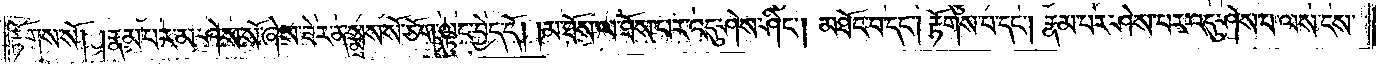རྟོགས་སོ། །རྣམ་པར་མ་ཤེས་སོ་ཞེས་ཟེར་ན་སྨྲས་སོ་ཅོག་ལྟུང་བྱེད་དོ། །མ་ཐོས་ལ་ཐོས་པར་འདུ་ཤེས་ཤིང༌། མཐོང་བ་དང༌། རྟོགས་པ་དང༌། རྣམ་པར་ཤེས་པར་འདུ་ཤེས་པ་ལས་ངས་
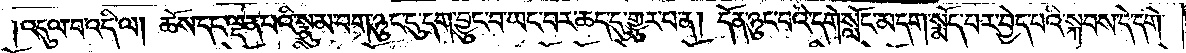འདུལ་བ་འདི་ལ། ཆོས་དང་ལྡན་པའི་སྣུམ་བག་ཉུང་དུ་དག་བྱུང་བ་ཡང་བར་ཆད་དུ་གྱུར་པ་ན། དོན་ཉུང་བའི་དགེ་སློང་མ་དག་སྨོད་པར་བྱེད་པའི་སྐབས་དེ་དགེ་
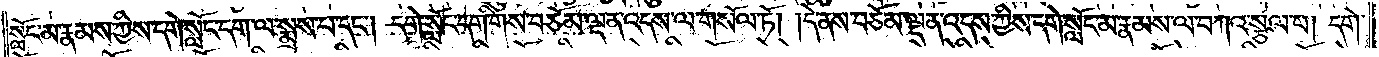སློང་མ་རྣམས་ཀྱིས་དགེ་སློང་དག་ལ་སྨྲས་པ་དང༌། དགེ་སློང་དག་གིས་བཅོམ་ལྡན་འདས་ལ་གསོལ་ཏོ། །དེ་ནས་བཅོམ་ལྡན་འདས་ཀྱིས་དགེ་སློང་མ་རྣམས་ལ་བཀའ་སྩལ་པ། དགེ་
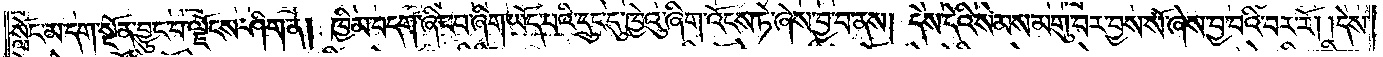སློང་མ་དག་སྔོན་བྱུང་བ་ལྗོངས་ཤིག་ན། ཁྱིམ་བདག་ཞིང་པ་ཞིག་ཡོད་པའི་དྲུང་དུ་ཁྱེའུ་ཞིག་འོངས་ཏེ་ཞེས་བྱ་བ་ནས། དེས་དེའི་སེམས་མགུ་བར་བྱས་སོ་ཞེས་བྱ་བའི་བར་རོ། །དེས་
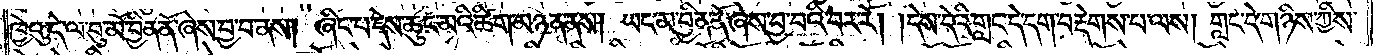ཁྱེའུ་དེ་ལ་བུ་མོ་བྱིན་ནོ་ཞེས་བྱ་བ་ནས། ཞིང་པ་དེས་ཆུང་མའི་ཚིག་མཉན་ནས། ཡང་མ་བྱིན་ནོ་ཞེས་བྱ་བའི་བར་རོ། །དེས་དེའི་གླང་དེ་དག་བརྡེགས་པ་ལས། གླང་དེ་གཉིས་ཀྱིས་
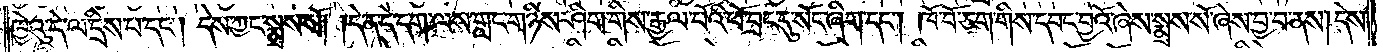ཁྱེའུ་དེ་ལ་དྲིས་པ་དང༌། དེས་ཀྱང་སྨྲས་སོ། །དེ་ན་དེ་དག་ལས་གླང་གཉིས་ཤིག་གིས་རྒྱལ་པོའི་ཕོ་བྲང་དུ་སོང་ཞིག་དང༌། ཁོ་བོ་ཅག་གིས་དབང་བྱའོ་ཞེས་སྨྲས་སོ་ཞེས་བྱ་བ་ནས། དེས་
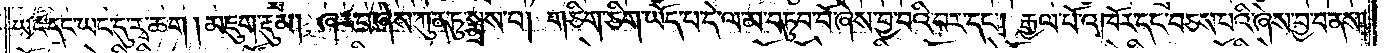ཡང་དང་ཡང་དུ་རྭ་ཆག །མཇུག་རྡུམ། ཞར་བ་ཞེས་ཀུན་ཏུ་སྨྲས་པ། གཅིག་ཅིག་ཡོད་པ་དེ་ལ་མ་བཏུབ་བོ་ཞེས་བྱ་བའི་བར་དང༌། རྒྱལ་པོ་འཁོར་དང་བཅས་པའི་ཞེས་བྱ་བ་ནས།
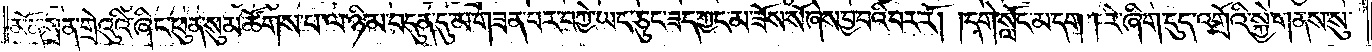མོན་སྲན་གྲེའུའི་ཞིང་ཕུན་སུམ་ཚོགས་པ་ལ་ཉི་མ་བདུན་དུ་མ་གཟན་པར་བཀྱེ་ཡང་ཅུང་ཟད་ཀྱང་མ་ཟོས་སོ་ཞེས་བྱ་བའི་བར་རོ། །དགེ་སློང་མ་དག །རེ་ཞིག་དུད་འགྲོའི་སྐྱེ་གནས་སུ་
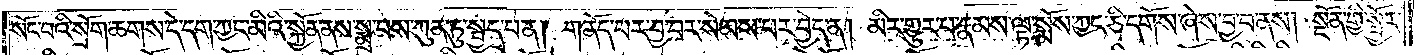སོང་བའི་སྲོག་ཆགས་དེ་དག་ཀྱང་མིའི་སྐྱོན་ནས་སྨྲ་བས་ཀུན་ཏུ་སྤྱད་པ་ན། གནོད་པར་བྱ་བར་སེམས་པར་བྱེད་ན། མིར་གྱུར་པ་རྣམས་ལྟ་སྨོས་ཀྱང་ཅི་དགོས་ཞེས་བྱ་བ་ནས། སྔོན་གྱི་སྦྱོང་
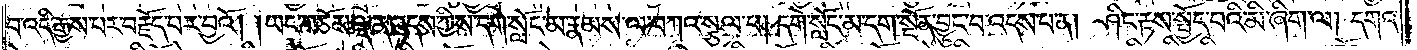བ་འདི་རྒྱས་པར་བརྗོད་པར་བྱའོ། །ཡང་བཅོམ་ལྡན་འདས་ཀྱིས་དགེ་སློང་མ་རྣམས་ལ་བཀའ་སྩལ་པ། དགེ་སློང་མ་དག་སྔོན་བྱུང་བ་འདས་པ་ན། ཤིང་རྟས་སྤྱོད་པའི་མི་ཞིག་ལ། དགའ་
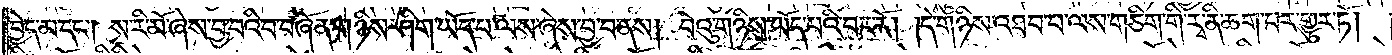བྱེད་མ་དང༌། ས་རི་མོ་ཞེས་བྱ་བའི་བ་བཞོན་གཉིས་ཤིག་ཡོད་པ་ལས་ཞེས་བྱ་བ་ནས། བེའུ་གཉིས་ཡོད་པའི་བར་རོ། །དེ་གཉིས་འཐབ་པ་ལས་གཅིག་གི་རྭ་ནི་ཆག་པར་གྱུར་ཏོ། །
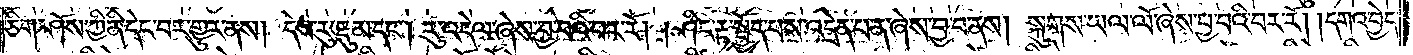ཅིག་ཤོས་ཀྱི་ནི་དེང་བར་གྱུར་ནས། དེས་རུ་རྡུམ་དང༌། རུ་འདེལ་ཞེས་བྱ་བའི་བར་རོ། །ཤིང་རྟ་སྤྱོད་པས་འདྲེན་པ་ན་ཞེས་བྱ་བ་ནས། སྐུགས་ཡལ་ལོ་ཞེས་བྱ་བའི་བར་རོ། །དགའ་བྱེད་
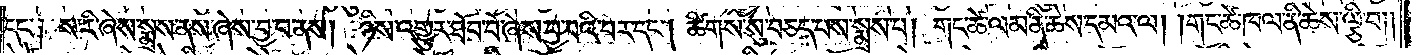དང་༑ ས་རི་ཞེས་སྨྲས་ནས་ཞེས་བྱ་བ་ནས། ཉིས་འགྱུར་ཐོབ་བོ་ཞེས་བྱ་བའི་བར་དང༌། ཚིགས་སུ་བཅད་པས་སྨྲས་པ། གང་ཚེ་ལམ་ནི་ཆེས་དམའ་ལ། །གང་ཚེ་ཁལ་ནི་ཆེས་ལྕི་བ། །
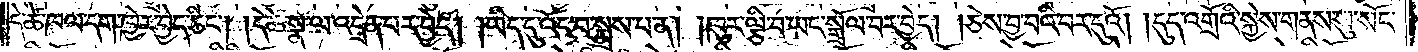དེ་ཚེ་ཁལ་དག་ཁྱེར་བྱེད་ཅིང༌། །དེ་ཚེ་སྣ་ལ་འདྲེན་པར་བྱེད། །ཡིད་དུ་འོང་བ་སྨྲས་པ་ན། །ཁུར་ལྕི་བ་ཡང་སྒྲོལ་བར་བྱེད། །ཅེས་བྱ་བའི་བར་དུའོ། །དུད་འགྲོའི་སྐྱེས་གནས་སུ་སོང་
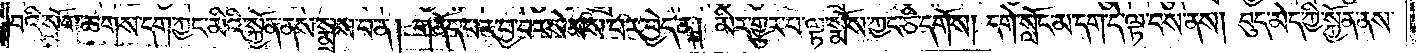བའི་སྲོག་ཆགས་དག་ཀྱང་མིའི་སྐྱོན་ནས་སྨྲས་པ་ན། གནོད་པར་བྱ་བར་སེམས་པར་བྱེད་ན། མི་གྱུར་པ་ལྟ་སྨོས་ཀྱང་ཅི་དགོས། དགེ་སློང་མ་དག་དེ་ལྟ་བས་ནས། བུད་མེད་ཀྱི་སྐྱོན་ནས་
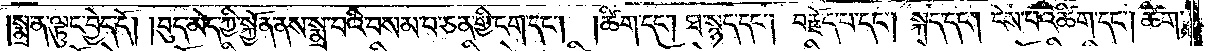སྨྲ་ན་ལྟུང་བྱེད་དོ། །བུད་མེད་ཀྱི་སྐྱོན་ནས་སྨྲ་བའི་བསམ་པ་ཅན་གྱི་ངག་དང༌། །ཚིག་དང༌། ཐ་སྙད་དང༌། བརྗོད་པ་དང༌། སྐད་དང༌། ངེས་པའི་ཚིག་དང༌། ཚིག་
